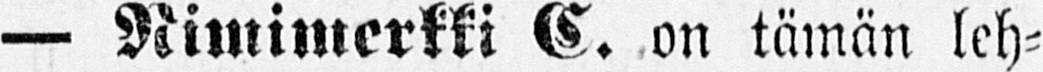— Nimimerkki C. on tämän leh-
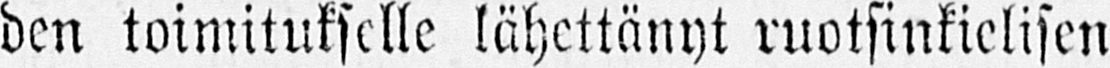den toimitukselle lähettänyt ruotsinkielisen
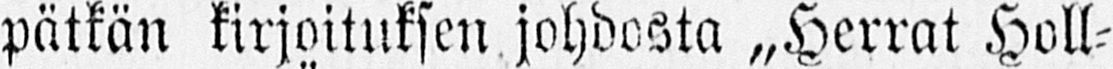pätkän kirjoituksen johdosta „Herrat Holl-
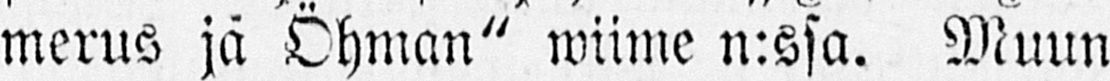merus ja Öhman" wiime n:ssa. Muun
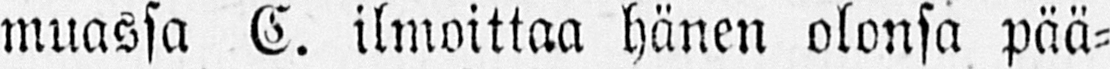muassa C. ilmoittaa hänen olonsa pää-
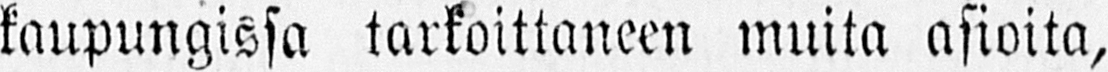kaupungissa tarkoittaneen muita asioita,
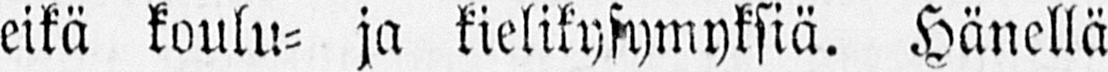eikä koulu- ja kielikysymyksiä. Hänellä
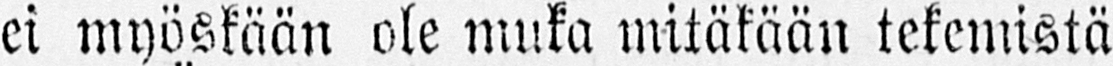ei myöskään ole muka mitäkään tekemistä
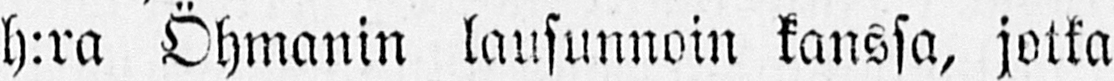h:ra Öhmanin lausunnoin kanssa, jotka
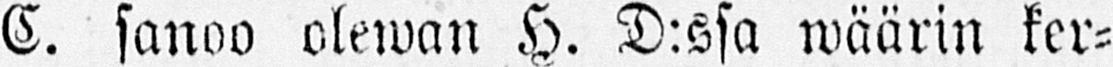C. sanoo olewan H. D:ssa wäärin ker-
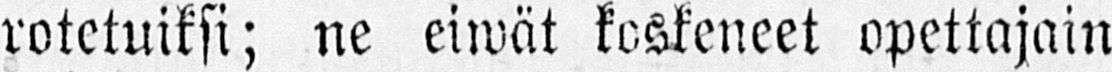rotetuiksi; ne eiwät koskeneet opettajain
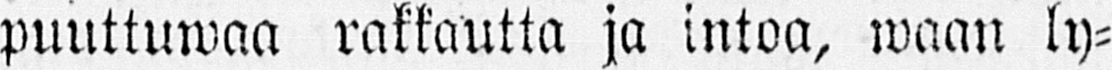puuttuwaa rakkautta ja intoa, waan ly-
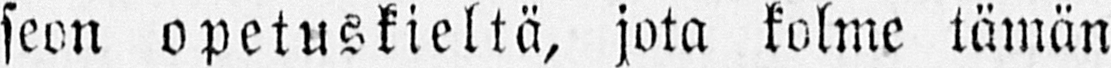seon opetuskieltä, jota kolme tämän
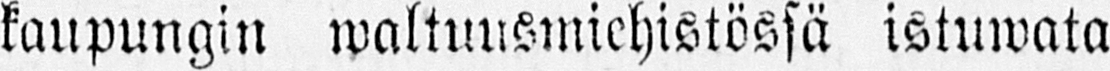kaupungin waltuusmiehistössä istuwata
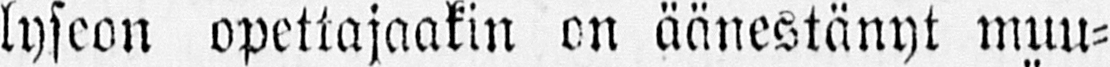lyseon opettajaakin on äänestänyt muu-
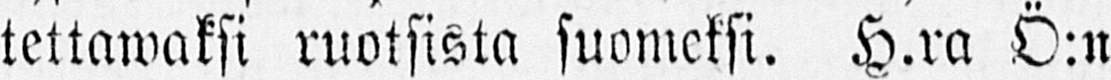tettawaksi ruotsista suomeksi. H.ra Ö:n
